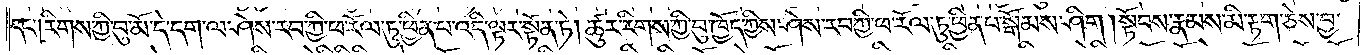དང༌། རིགས་ཀྱི་བུ་མོ་དེ་དག་ལ་ཤེས་རབ་ཀྱི་ཕ་རོལ་ཏུ་ཕྱིན་པ་འདི་ལྟར་སྟོན་ཏེ། ཚུར་རིགས་ཀྱི་བུ་ཁྱོད་ཀྱིས་ཤེས་རབ་ཀྱི་ཕ་རོལ་ཏུ་ཕྱིན་པ་སྒོམས་ཤིག །སྟོབས་རྣམས་མི་རྟག་ཅེས་བྱ་
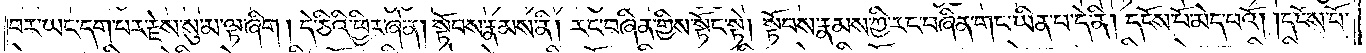བར་ཡང་དག་པར་རྗེས་སུ་མ་ལྟ་ཞིག །དེ་ཅིའི་ཕྱིར་ཞེ་ན། སྟོབས་རྣམས་ནི། རང་བཞིན་གྱིས་སྟོང་སྟེ། སྟོབས་རྣམས་ཀྱི་རང་བཞིན་གང་ཡིན་པ་དེ་ནི། དངོས་པོ་མེད་པའོ། །དངོས་པོ་
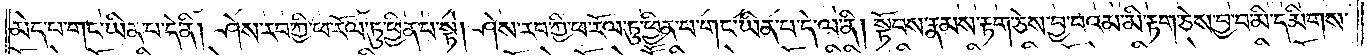མེད་པ་གང་ཡིན་པ་དེ་ནི། ཤེས་རབ་ཀྱི་ཕ་རོལ་ཏུ་ཕྱིན་པ་སྟེ། ཤེས་རབ་ཀྱི་ཕ་རོལ་ཏུ་ཕྱིན་པ་གང་ཡིན་པ་དེ་ལ་ནི། སྟོབས་རྣམས་རྟག་ཅེས་བྱ་བའམ་མི་རྟག་ཅེས་བྱ་བ་མི་དམིགས་
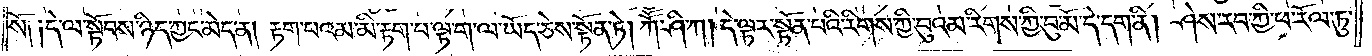སོ༑ ༑དེ་ལ་སྟོབས་ཉིད་ཀྱང་མེད་ན། རྟག་པའམ་མི་རྟག་པ་ལྟ་ག་ལ་ཡོད་ཅེས་སྟོན་ཏེ། ཀཽ་ཤི་ཀ། དེ་ལྟར་སྟོན་པའི་རིགས་ཀྱི་བུའམ་རིགས་ཀྱི་བུ་མོ་དེ་དག་ནི། ཤེས་རབ་ཀྱི་ཕ་རོལ་ཏུ་
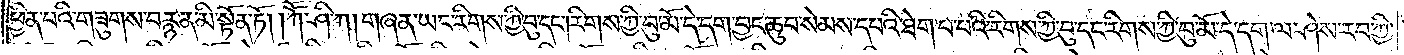ཕྱིན་པའི་གཟུགས་བརྙན་མི་སྟོན་ཏོ། །ཀཽ་ཤི་ཀ། གཞན་ཡང་རིགས་ཀྱི་བུ་དང་རིགས་ཀྱི་བུ་མོ་དེ་དག་བྱང་ཆུབ་སེམས་དཔའི་ཐེག་པ་པའི་རིགས་ཀྱི་བུ་དང་རིགས་ཀྱི་བུ་མོ་དེ་དག་ལ་ཤེས་རབ་ཀྱི་
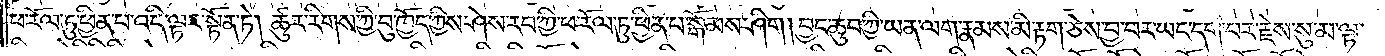ཕ་རོལ་ཏུ་ཕྱིན་པ་འདི་ལྟར་སྟོན་ཏེ། ཚུར་རིགས་ཀྱི་བུ་ཁྱོད་ཀྱིས་ཤེས་རབ་ཀྱི་ཕ་རོལ་ཏུ་ཕྱིན་པ་སྒོམས་ཤིག །བྱང་ཆུབ་ཀྱི་ཡན་ལག་རྣམས་མི་རྟག་ཅེས་བྱ་བར་ཡང་དག་པར་རྗེས་སུ་མ་ལྟ་
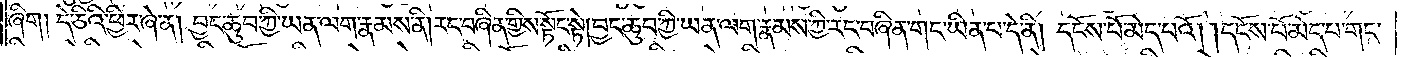ཞིག །དེ་ཅིའི་ཕྱིར་ཞེ་ན། བྱང་ཆུབ་ཀྱི་ཡན་ལག་རྣམས་ནི། རང་བཞིན་གྱིས་སྟོང་སྟེ། བྱང་ཆུབ་ཀྱི་ཡན་ལག་རྣམས་ཀྱི་རང་བཞིན་གང་ཡིན་པ་དེ་ནི། དངོས་པོ་མེད་པའོ། །དངོས་པོ་མེད་པ་གང་
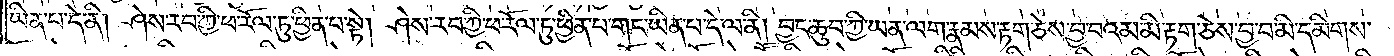ཡིན་པ་དེ་ནི། ཤེས་རབ་ཀྱི་ཕ་རོལ་ཏུ་ཕྱིན་པ་སྟེ། ཤེས་རབ་ཀྱི་ཕ་རོལ་ཏུ་ཕྱིན་པ་གང་ཡིན་པ་དེ་ལ་ནི། བྱང་ཆུབ་ཀྱི་ཡན་ལག་རྣམས་རྟག་ཅེས་བྱ་བའམ་མི་རྟག་ཅེས་བྱ་བ་མི་དམིགས་
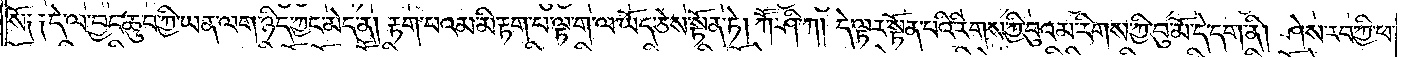སོ༑ ༑དེ་ལ་བྱང་ཆུབ་ཀྱི་ཡན་ལག་ཉིད་ཀྱང་མེད་ན། རྟག་པའམ་མི་རྟག་པ་ལྟ་ག་ལ་ཡོད་ཅེས་སྟོན་ཏེ། །ཀཽ་ཤི་ཀ། དེ་ལྟར་སྟོན་པའི་རིགས་ཀྱི་བུའམ་རིགས་ཀྱི་བུ་མོ་དེ་དག་ནི། ཤེས་རབ་ཀྱི་ཕ་
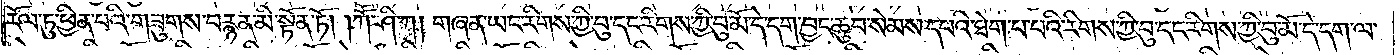རོལ་ཏུ་ཕྱིན་པའི་གཟུགས་བརྙན་མི་སྟོན་ཏོ། །ཀཽ་ཤི་ཀ། གཞན་ཡང་རིགས་ཀྱི་བུ་དང་རིགས་ཀྱི་བུ་མོ་དེ་དག་བྱང་ཆུབ་སེམས་དཔའི་ཐེག་པ་པའི་རིགས་ཀྱི་བུ་དང་རིགས་ཀྱི་བུ་མོ་དེ་དག་ལ་
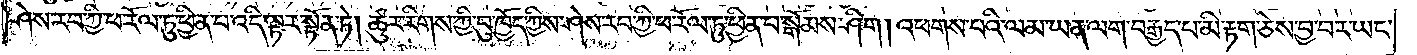ཤེས་རབ་ཀྱི་ཕ་རོལ་ཏུ་ཕྱིན་པ་འདི་ལྟར་སྟོན་ཏེ། ཚུར་རིགས་ཀྱི་བུ་ཁྱོད་ཀྱིས་ཤེས་རབ་ཀྱི་ཕ་རོལ་ཏུ་ཕྱིན་པ་སྒོམས་ཤིག །འཕགས་པའི་ལམ་ཡན་ལག་བརྒྱད་པ་མི་རྟག་ཅེས་བྱ་བར་ཡང་
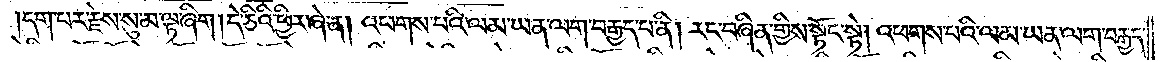དག་པར་རྗེས་སུ་མ་ལྟ་ཞིག །དེ་ཅིའི་ཕྱིར་ཞེ་ན། འཕགས་པའི་ལམ་ཡན་ལག་བརྒྱད་པ་ནི། རང་བཞིན་གྱིས་སྟོང་སྟེ། འཕགས་པའི་ལམ་ཡན་ལག་བརྒྱད་
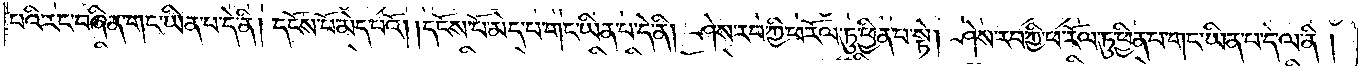པའི་རང་བཞིན་གང་ཡིན་པ་དེ་ནི། དངོས་པོ་མེད་པའོ། །དངོས་པོ་མེད་པ་གང་ཡིན་པ་དེ་ནི། ཤེས་རབ་ཀྱི་ཕ་རོལ་ཏུ་ཕྱིན་པ་སྟེ། ཤེས་རབ་ཀྱི་ཕ་རོལ་ཏུ་ཕྱིན་པ་གང་ཡིན་པ་དེ་ལ་ནི།
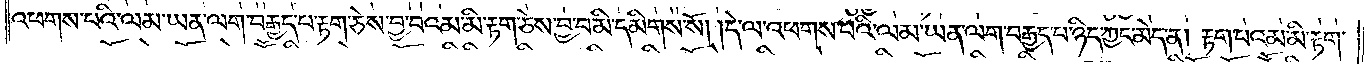འཕགས་པའི་ལམ་ཡན་ལག་བརྒྱད་པ་རྟག་ཅེས་བྱ་བའམ་མི་རྟག་ཅེས་བྱ་བ་མི་དམིགས་སོ། །དེ་ལ་འཕགས་པའི་ལམ་ཡན་ལག་བརྒྱད་པ་ཉིད་ཀྱང་མེད་ན། རྟག་པའམ་མི་རྟག་
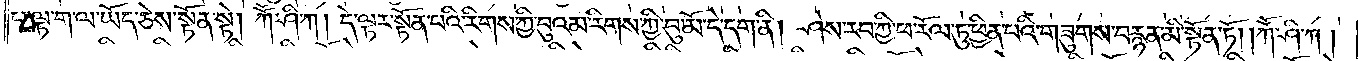པ་ལྟ་ག་ལ་ཡོད་ཅེས་སྟོན་ཏེ། ཀཽ་ཤི་ཀ། དེ་ལྟར་སྟོན་པའི་རིགས་ཀྱི་བུའམ་རིགས་ཀྱི་བུ་མོ་དེ་དག་ནི། ཤེས་རབ་ཀྱི་ཕ་རོལ་ཏུ་ཕྱིན་པའི་གཟུགས་བརྙན་མི་སྟོན་ཏོ། །ཀཽ་ཤི་ཀ།
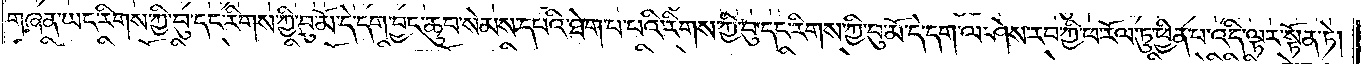གཞན་ཡང་རིགས་ཀྱི་བུ་དང་རིགས་ཀྱི་བུ་མོ་དེ་དག་བྱང་ཆུབ་སེམས་དཔའི་ཐེག་པ་པའི་རིགས་ཀྱི་བུ་དང་རིགས་ཀྱི་བུ་མོ་དེ་དག་ལ་ཤེས་རབ་ཀྱི་ཕ་རོལ་ཏུ་ཕྱིན་པ་འདི་ལྟར་སྟོན་ཏེ།
